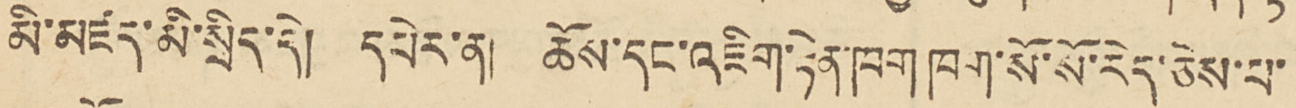མི་མཛད་མི་སྲིད་དེ། དཔེར་ན། ཆོས་དང་འཇིག་རྟེན་ཁག ཁག་སོ་སོ་རེད་ཅེས་པ་
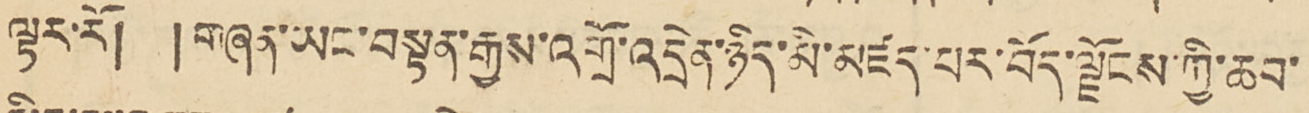ལྟར་རོ། །གཞན་ཡང་བསྟན་རྒྱས་འགྲོ་འདྲེན་ཉིད་མི་མཛད་པར་བོད་ལྗོངས་ཀྱི་ཆབ་
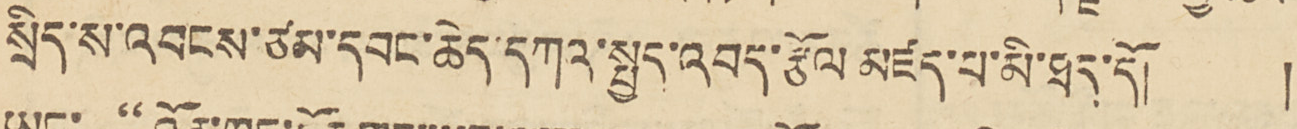སྲིད་ས་འབངས་ཙམ་དབང་ཙམ་དབང་ཆེད་དཀའ་སྤྱད་འབད་རྩོལ མཛད་པ་མི་ཐད་དོ། །
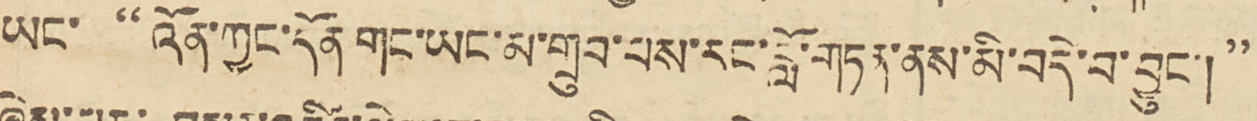ཡང་ "འོན་ཀྱང་དོན་གང་ཡང་མ་གྲུབ་པས་རང་བློ་གཏན་ནས་མི་བདེ་བ་བྱུང་།"
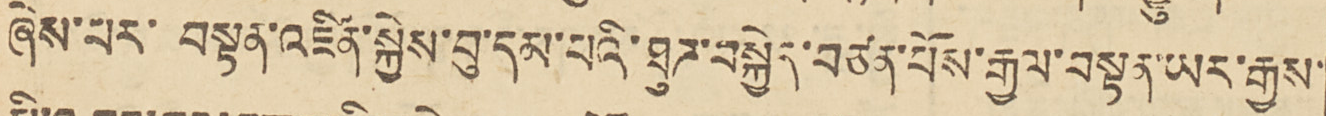ཞེས་པར་བསྟན་འཛིན་སྐྱེས་བུ་དམ་པའི་ཐུཌ་བསྐྱེད་བཙན་པོས་རྒྱལ་བསྟན་ཡར་རྒྱས་
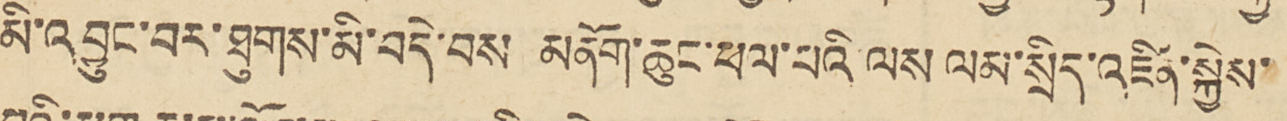མི་འབྱུང་བར་ཐུགས་མི་བདེ་བས མནོག་ཆུང་ཕལ་པའི་ལས་སྲིད་འཛིན་སྐྱེས་
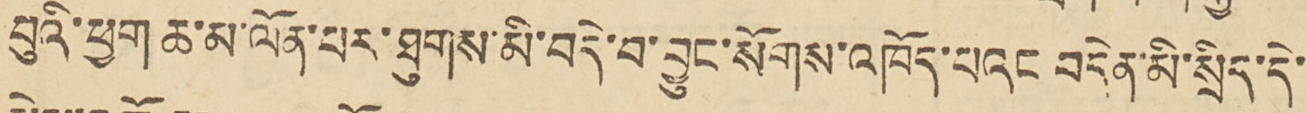བུའི་ཕྱག ཆ་མ་ལོན་པར་ཐུགས་མི་བདེ་བ་བྱུང་སོགས་འཁོད་པའང བདེན་མི་སྲིད་དེ་
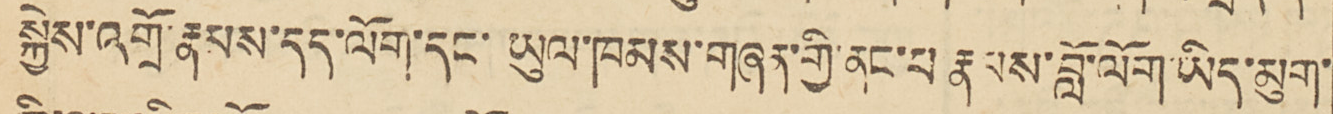སྐྱེས་འགྲོ་རྣམས་དད་ལོག་དང་ཡུལ་ཁམས་གཞན་གྱི་ནང་པ་རྣམས་བློ་ལོག་ཡིད་མུག་
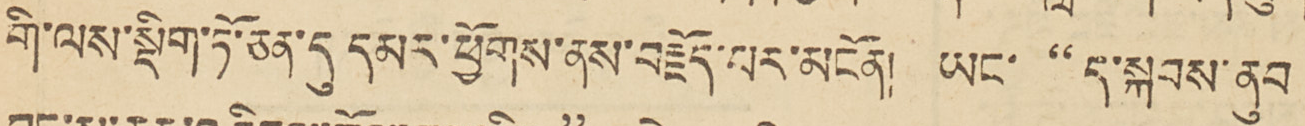གི་ལས་ལྡིག་ཏོ་ཅན་དུ དམར་ཕྱོགས་ནས་བརྗོད་པར་མངོན། ཡང་ "ད་སྐབས་ནུབ
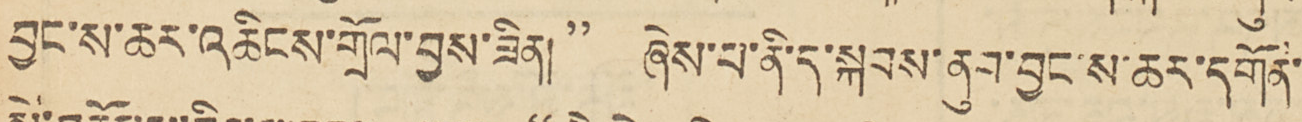བྱང་ས་ཆར་འཆིངས་གྲོལ་བྱས་ཟིན།" ཞེས་པ་ནི་ད་སྐབས་ནུབ་བྱང་ས་ཆར་དགོན་
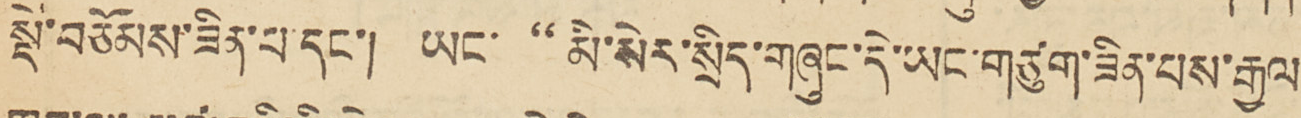སྡེ་བཅོམས་ཟིན་པ་དང་། ཡང་ "མི་སེར་སྲིད་གཞུང་དེ་ཡང་གཙུག་ཟིན་པས་རྒྱལ
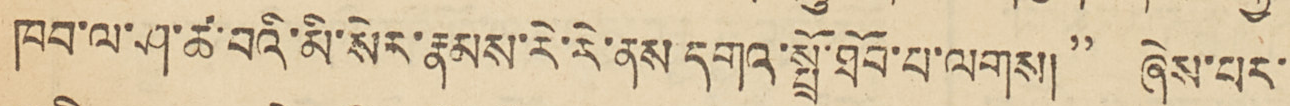ཁབ་ལ་ཤ་ཚ་བའི་མི་སེར་རྣམས་རེ་རེ་ནས་དགའ་སྤྲོ་ཐོབ་པ་ལགས།" ཞེས་པར་
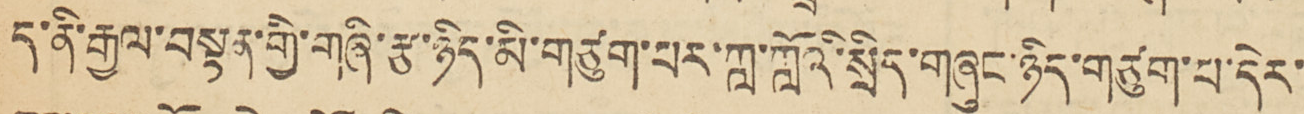ད་ནི་རྒྱལ་བསྟན་གྱི་གཞི་རྩ་ཉིད་མི་གཙུག་པར་ཀླ་ཀློའི་སྲིད་གཞུང་ཉིད་གཙུག་པ་དེར་
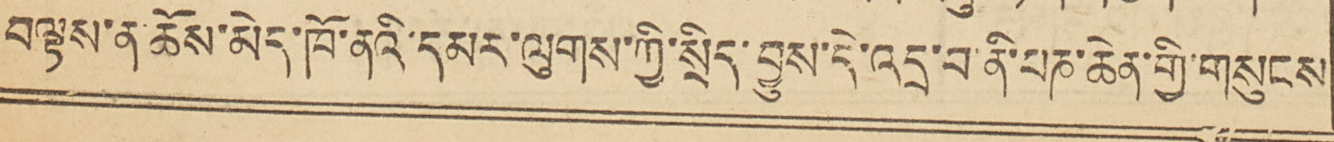བལྟས་ན ཚོས་མེད་ཁོ་ནའི་དམར་ལུགས་ཀྱི་སྲིད་བྱུས་དེ་འདྲ་བ་ནི་པན་ཆེན་གྱི་གསུངས
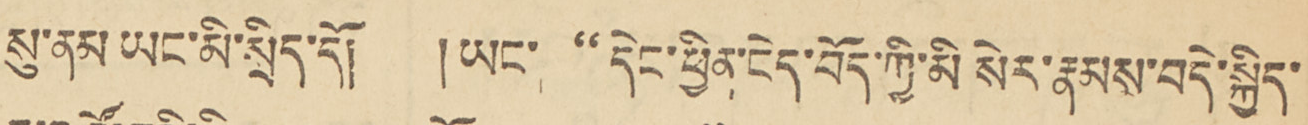སུ་ནམ་ཡང་མི་སྲིད་དོ། །ཡང་ "དེང་ཕྱིན་ངེད་བོད་ཀྱི་མི སེར་རྣམས་བདེ་སྐྱིད་
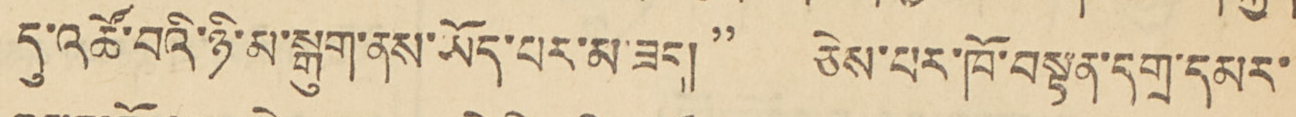དུ་འཚོ་བའི་ཉི་མ་སྒུག་ནས་ཡོད་པར་མ་ཟད།" ཅེས་པར་ཁོ་བསྟན་དགྲ་དམར་
